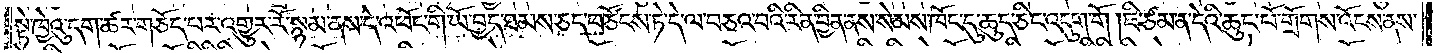སྟེ་ཁྱེའུ་དག་ཚར་གཅོད་པར་འགྱུར་རོ་སྙམ་ནས་དེ་འཕོང་གི་ཡོ་བྱད་ཐམས་ཅད་བཙོངས་ཏེ་དེ་ལ་བཅའ་བའི་རིན་བྱིན་ནས་སེམས་ཁོང་དུ་ཆུད་ཅིང་འདུག་གོ །ཇི་ཙམ་ན་དེའི་ཆུང་པོ་གྲོགས་འོངས་ནས་
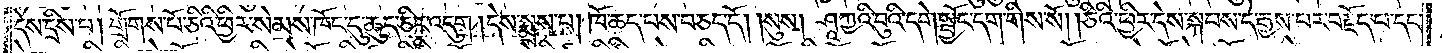དེས་དྲིས་པ། གྲོགས་པོ་ཅིའི་ཕྱིར་སེམས་ཁོང་དུ་ཆུད་ཅིང་འདུག །དེས་སྨྲས་པ། ཁོ་ཆད་པས་བཅད་དོ། །སུས། ཤཱཀྱའི་བུའི་དགེ་སྦྱོང་དག་གིས་སོ། །ཅིའི་ཕྱིར་དེས་སྐབས་དེ་རྒྱས་པར་བརྗོད་པ་དང་
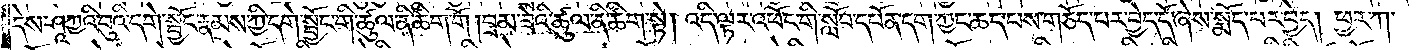དེས་ཤཱཀྱའི་བུའི་དགེ་སྦྱོང་རྣམས་ཀྱི་དགེ་སྦྱོང་གི་ཚུལ་ནི་ཚིག་གོ །བྲམ་ཟེའི་ཚུལ་ནི་ཚིག་སྟེ། འདི་ལྟར་འཕོང་གི་སློབ་དཔོན་དག་ཀྱང་ཆད་པས་གཅོད་པར་བྱེད་དོ་ཞེས་སྨོད་པར་བྱེད། ཕྱར་ཀ་
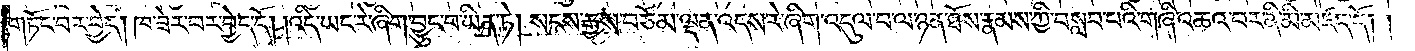གཏོང་བར་བྱེད། ཁ་ཟེར་བར་བྱེད་དོ། །འདི་ཡང་རེ་ཞིག་བྱུང་བ་ཡིན་ཏེ། སངས་རྒྱས་བཅོམ་ལྡན་འདས་རེ་ཞིག་འདུལ་བ་ལ་ཉན་ཐོས་རྣམས་ཀྱི་བསླབ་པའི་གཞི་འཆའ་བར་ནི་མི་མཛད་དོ། །
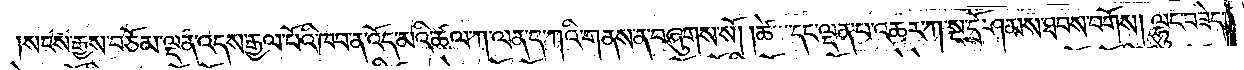སངས་རྒྱས་བཅོམ་ལྡན་འདས་རྒྱལ་པོའི་ཁབ་ན་འོད་མའི་ཚལ་ཀ་ལན་ད་ཀའི་གནས་ན་བཞུགས་སོ། །ཚེ་དང་ལྡན་པ་འཆར་ཀ་སྔ་དྲོ་ཤམས་ཐབས་བགོས། ལྷུང་བཟེད་
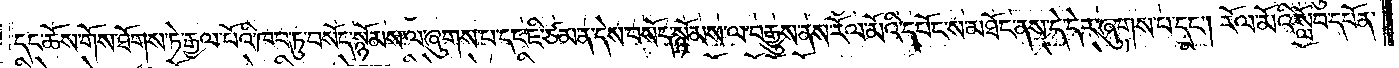དང་ཆོས་གོས་ཐོགས་ཏེ་རྒྱལ་པོའི་ཁབ་ཏུ་བསོད་སྙོམས་ལ་ཞུགས་པ་དང་ཇི་ཙམ་ན་དེས་བསོད་སྙོམས་ལ་བརྒྱུས་ནས་རོལ་མོའི་དཔོང་ས་མཐོང་ནས་དེ་དེར་ཞུགས་པ་དང༌། རོལ་མོའི་སློབ་དཔོན་
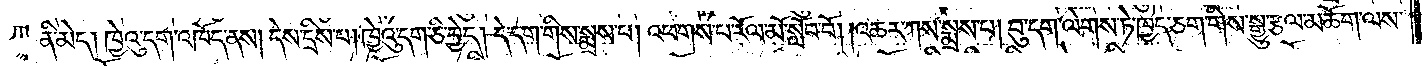ནི་མེད། ཁྱེའུ་དག་འཁོད་ནས། དེས་དྲིས་པ། ཁྱེའུ་དག་ཅི་བྱེད། དེ་དག་གིས་སྨྲས་པ། འཕགས་པ་རོལ་མོ་སློབ་བོ། །འཆར་ཀས་སྨྲས་པ། བུ་དག་ལེགས་ཏེ་ཁྱེད་ཅག་གིས་སྒྱུ་རྩལ་མཆོག་ལས་
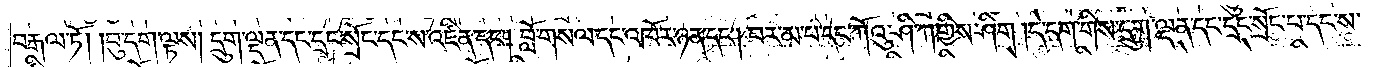བརྒལ་ཏོ། །བུ་དག་ལྟས། དྲུག་ལྡན་དང་དྲང་སྲོང་དང་ས་འཛིན་དང༌། བློ་གསལ་དང་འཁོར་ཉན་དང༌། བར་མ་པ་དང་ཀོའུ་ཤི་ཀ་གྱིས་ཤིག །དེ་དག་གིས་དྲུག་ལྡན་དང་དྲང་སྲོང་པ་དང་ས་
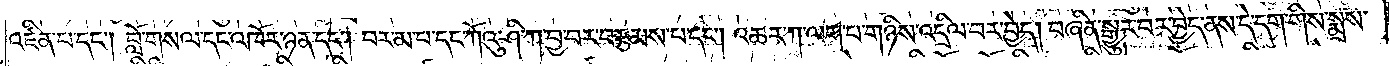འཛིན་པ་དང༌། བློ་གསལ་དང་འཁོར་ཉན་དང༌། བར་མ་པ་དང་ཀོའུ་ཤི་ཀ་བྱ་བར་བརྩམས་པ་དང༌། འཆར་ཀ་ལག་པ་གཉིས་འདྲིལ་བར་བྱེད། བཞིན་སྒྱུར་བར་བྱེད་ནས་དེ་དག་གིས་སྨྲས་
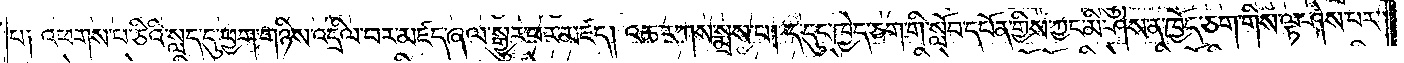པ༑ འཕགས་པ་ཅིའི་སླད་དུ་ཕྱག་གཉིས་འདྲིལ་བར་མཛད་ཞལ་སྒྱུར་བར་མཛད། འཆར་ཀས་སྨྲས་པ། ད་དུང་ཁྱེད་ཅག་གི་སློབ་དཔོན་གྱིས་ཀྱང་མི་ཤེས་ན་ཁྱོད་ཅག་གིས་ལྟ་ཤེས་པར་
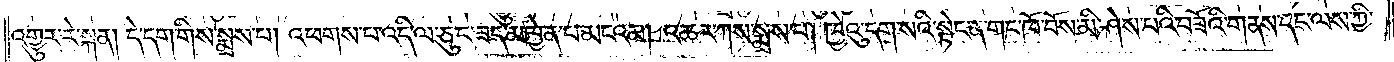འགྱུར་རེ་སྐན། དེ་དག་གིས་སྨྲས་པ། འཕགས་པ་འདི་ལ་ཅུང་ཟད་མཁྱེན་པ་མངའམ། འཆར་ཀས་སྨྲས་པ། ཁྱེའུ་དག་སའི་སྟེང་ན་གང་ཁོ་བོས་མི་ཤེས་པའི་བཟོའི་གནས་དང་ལས་ཀྱི་
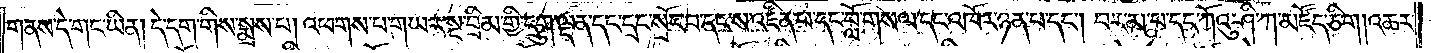གནས་དེ་གང་ཡིན། དེ་དག་གིས་སྨྲས་པ། འཕགས་པ་གཡར་སྔ་བྲིམ་གྱི་དྲུག་ལྡན་དང་དྲང་སྲོང་བ་དང་ས་འཛིན་པ་དང་བློ་གསལ་དང་འཁོར་ཉན་པ་དང༌། བར་མ་པ་དང་ཀོའུ་ཤི་ཀ་མཛོད་ཅིག །འཆར་
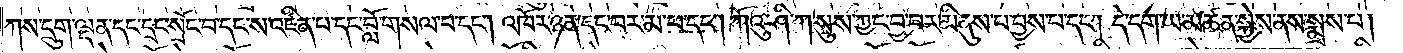ཀས་དྲུག་ལྡན་དང་དྲང་སྲོང་བ་དང་ས་འཛིན་པ་དང་བློ་གསལ་བ་དང༌། འཁོར་ཉན་དང་བར་མ་པ་དང༌། ཀོའུ་ཤི་ཀ་སུས་ཀྱང་བྱ་བར་མི་ནུས་པ་བྱས་པ་དང༌། དེ་དག་ཡ་མཚན་སྐྱེས་ནས་སྨྲས་པ།
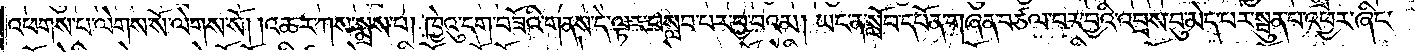འཕགས་པ་ལེགས་སོ་ལེགས་སོ། །འཆར་ཀས་སྨྲས་པ། ཁྱེའུ་དག་བཟོའི་གནས་དེ་ལྟར་བསླབ་པར་བྱ་བའམ། ཡང་ན་སློབ་དཔོན་གཞན་བཙལ་བར་བྱའི་འབྲས་བུ་མེད་པར་སྦུན་པ་འཕྱར་ཞིང་
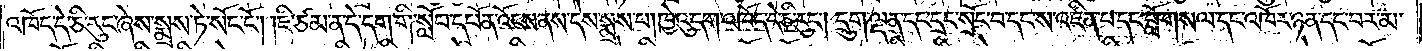འཁོད་དེ་ཅི་རུང་ཞེས་སྨྲས་ཏེ་སོང་ངོ༌། །ཇི་ཙམ་ན་དེ་དག་གི་སློབ་དཔོན་འོངས་ནས་དེས་སྨྲས་པ། ཁྱེའུ་དག་འཁོད་དེ་ཅི་རུང༌། དྲུག་ལྡན་དང་དྲང་སྲོང་བ་དང་ས་འཛིན་པ་དང་བློ་གསལ་དང་འཁོར་ཉན་དང་བར་མ་
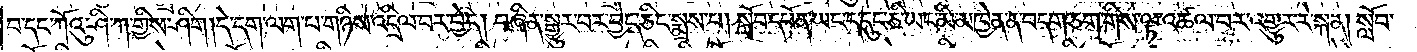བ་དང་ཀོའུ་ཤི་ཀ་གྱིས་ཤིག །དེ་དག་ལག་པ་གཉིས་འདྲིལ་བར་བྱེད། བཞིན་སྒྱུར་བར་བྱེད་ཅིང་སྨྲས་པ། སློབ་དཔོན་ཡང་ད་དུང་ཅི་ཡང་མི་མཁྱེན་ན་བདག་ཅག་གིས་ལྟ་འཚལ་བར་འགྱུར་རེ་སྐན། སློབ་
